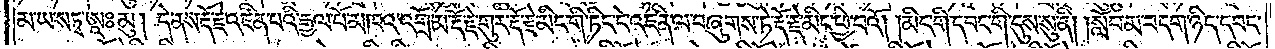མ་ཡ་སཏྭ་ཨཱཿམུ། །དེ་ནས་རྡོ་རྗེ་འཛིན་པའི་རྒྱལ་པོ་མཁའ་འགྲོ་མ་རྡོ་རྗེ་གུར་རྡོ་རྗེ་མིང་གི་ཏིང་ངེ་འཛིན་ལ་བཞུགས་ཏེ་རྡོ་རྗེ་མིང་ཕྱེ་བའོ། །མིང་གི་དབང་གི་དུས་སུ་ནི། །སློབ་མ་བདག་ཉིད་དབང་
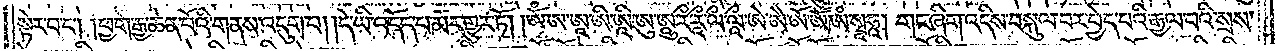སྟེར་བ་ང༌། །ཕྱག་རྒྱ་ཆེན་པོའི་གནས་འདུག་པ། །དེ་ཡི་འདོད་པ་མར་གྱུར་ཏོ། །ཨོཾ་ཨ་ཨཱ་ཨི་ཨཱི་ཨུ་ཨཱུ་རྀ་རཱྀ་ལྀ་ལཱྀ་ཨེ་ཨཻ་ཨོ་ཨཽ་ཨཾ་སྭཱཧཱ། གང་ཞིག་འདིས་བསྐུལ་བར་བྱེད་པའི་རྒྱལ་བའི་སྲས་
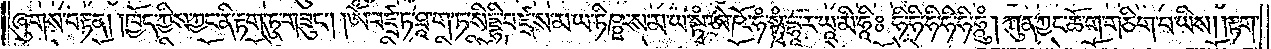ཞུགས་བརྟན། །ཁྱོད་ཀྱིས་ཀྱང་ནི་རྟག་ཏུ་གཟུང༌། །ཨོཾ་བཛྲ་ཏ་ཐཱ་ག་ཏ་སིདྡྷི་བཛྲ་ས་མ་ཡ་ཏིཥྛ་ས་མ་ཡ་སྟྭཾ་ཨེ་ཥོ་ཧཾ་སྟྭཾ་དྷཱ་ར་ཡཱ་མི་ཧཱིཿ ཧི་ཧི་ཧི་ཧི་ཧི་ཧཱུཾ། ཀུན་ཀྱང་ཆོག་གཅིག་པ་ཡིས། །རྟག་
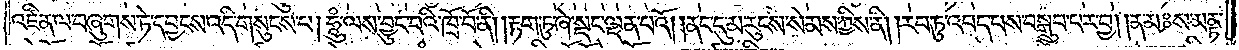འཛིན་ལ་བཞུགས་ཏེ་དབྱངས་འདི་གསུངས་པ། ཧཱུཾ་ལས་བྱུང་བའི་ཁྲོ་པོ་ནི། །རྟག་ཏུ་ཞེ་སྡང་ལྡན་པའོ། །ནང་དུ་མ་རུངས་སེམས་ཀྱིས་ནི། །རབ་ཏུ་འབད་པས་བསྒྲུབ་པར་བྱ། །ན་མཿ ས་མནྟ་
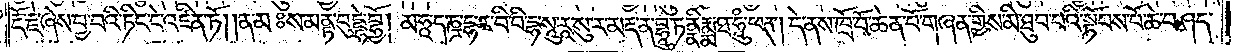རྡོ་རྗེ་ཞེས་བྱ་བའི་ཏིང་ངེ་འཛིན་ཏོ། །ན་མཿ ས་མནྟ་བུདྡྷེ་བྷྱོ། མ་ཧཱ་ད་ཎྜ་དྷ་ར་བི་བི་དྷ་སཱུ་རཱ་སུ་ར་མརྡ་ན་བྷཱུ་ཏནྣི་རྨྨ་ཐ་ཧཱུཾ་ཕཊ། དེ་ནས་ཁྲོ་བོ་ཆེན་པོ་གཞན་གྱིས་མི་ཐུབ་པའི་སྟོབས་པོ་ཆེ་བཤད་
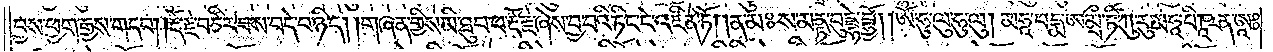བྱས་ཕྱག་རྒྱས་གདབ། །རྡོ་རྗེ་བཙིར་བས་བདེ་བ་ཉིད། །གཞན་གྱིས་མི་ཐུབ་པ་རྡོ་རྗེ་ཞེས་བྱ་བའི་ཏིང་ངེ་འཛིན་ཏོ། །ན་མཿ ས་མནྟ་བུདྡྷེ་བྷྱོ། །ཨོཾ་ཧུ་ལུ་ཧུ་ལུ། མཧཱ་པདྨ་ཨ་མྲྀ་ཏི་ཀུ་རུ་མ་ཧཱ་པི་ཥཱ་ན་ཨཱཿ
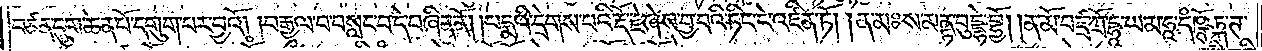བཙན་དུག་ཆེན་པོ་དགུག་པར་བྱའོ། །བརྒྱལ་བ་བསླང་བ་དེ་བཞིན་ནོ། །པདྨའི་དྲེགས་པའི་རྡོ་རྗེ་ཞེས་བྱ་བའི་ཏིང་ངེ་འཛིན་ཏོ། །ན་མཿ ས་མནྟ་བུདྡྷེ་བྷྱོ། །ན་མོ་བཛྲ་ཀྲོ་དྷཱ་ཡ་མ་ཧཱ་དཾ་ཥྚོཏྐ་ཊ་
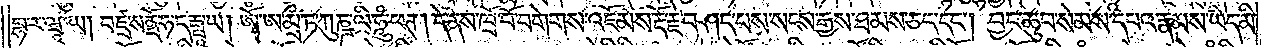བྷ་ར་ཝཱ་ཡ། བཛྲ་སནྡོ་ཧ་དརྦྤཱ་ཡ། ཨོཾ་ཨ་མྲྀ་ཏ་ཀུཎྜ་ལི་ཧཱུཾ་ཕཊ། དེ་ནས་ཁྲོ་བོ་བགེགས་འཇོམས་རྡོ་རྗེ་བཤད་པས་སངས་རྒྱས་ཐམས་ཅད་དང༌། བྱང་ཆུབ་སེམས་དཔའ་རྣམས་ཡིད་མི་
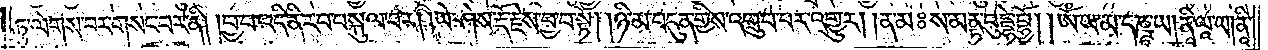ཅུ་ལེགས་བར་གསང་བར་ནི། །བྱ་བ་འདི་ནི་རབ་བསྐུལ་བར། །ཡེ་ཤེས་རྡོ་རྗེས་བྱ་བ་སྟེ། །ཉི་མ་བདུན་གྱིས་འགྲུབ་པར་འགྱུར། །ན་མཿ ས་མནྟ་བུདྡྷེ་བྷྱོ། །ཨོཾ་ཡ་མ་དཎྜཱ་ཡ། ནཱི་ལཱ་ཡ། ནཱི་
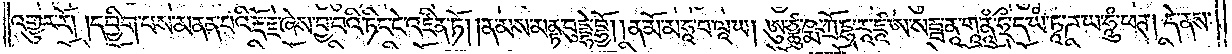འགྱུར་རོ། །དབྱིག་པས་མནན་པའི་རྡོ་རྗེ་ཞེས་བྱ་བའི་ཏིང་ངེ་འཛིན་ཏོ། །ནམས་མནྟ་བུདྡྷེ་བྷྱོ། །ན་མོ་མ་ཧཱ་བ་ལཱ་ཡ། ཨུ་ཙྪུ་ཥྨ་ཀྲོ་དྷ་རཱ་ཛཱ་ཨ་སརྦྦ་ནཱ་གཱ་ནཱཾ་ཧྲྀ་ད་ཡཾ་ཏཱ་ཊ་ཡ་ཧཱུཾ་ཕཊ། དེ་ནས་
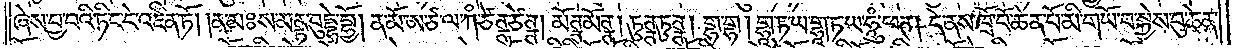ཞེས་བྱ་བའི་ཏིང་ངེ་འཛིན་ཏོ། །ན་མཿ ས་མནྟ་བུདྡྷེ་བྷྱོ། ན་མོ་ཨ་ཙ་ལ་ཀཾ་ཙེ་ཊྚ་ཙེཊྚ། མོཊྚ་མོཊྚ། ཏུཊྚ་ཏུཊྚ། གྷ་གྷ། གྷཱ་ཏ་ཡ་གྷཱ་ཏ་ཡ་ཧཱུཾ་ཕཊ། དེ་ནས་ཁྲོ་བོ་ཆེན་པོ་མི་གཡོ་བ་སྐྱེས་བུ་ཆེན་
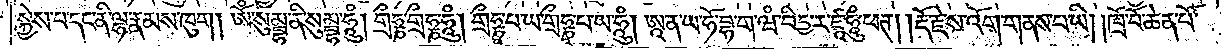སྐྱེས་པ་དང་ནི་ལྷ་རྣམས་ཁུག། ཨོཾ་སུམྦྷ་ནི་སུམྦྷ་ཧཱུཾ། གྲྀཧྞ་གྲྀཧྞ་ཧཱུཾ། གྲྀཧྞཱ་པ་ཡ་གྲྀཧྞཱ་པ་ཡ་ཧཱུཾ། ཨཱ་ན་ཡ་ཧོ་བྷ་ག་ཝཾ་བིདྱ་ར་ཛཱ་ཧཱུཾ་ཕཊ། །རྡོ་རྗེ་ས་འོག་གནས་པ་ཡི། །ཁྲོ་བོ་ཆེན་པོ་
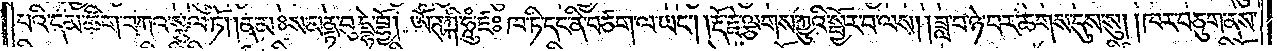པའི་དམ་ཚིག་བཀའ་སྩལ་ཏོ། །ན་མཿ ས་མནྟ་བུདྡྷེ་བྷྱོ། ཨོཾ་ཊཀྐི་ཧཱུཾ་ཛཿ ཁ་ཏི་དང་ནི་བཙག་ལ་ཡང༌། །རྡོ་རྗེ་ལྕགས་ཀྱུའི་སྦྱོར་བ་ལས། །ཟླ་བ་ཉེ་བར་ཆགས་དུས་སུ། །ཁར་བཅུག་ནས་
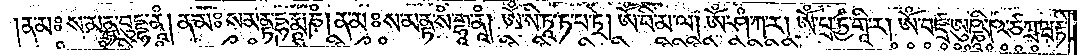ན་མཿ ས་མནྟ་བུདྡྷ་ནཱཾ། ན་མཿ ས་མནྟ་དྷརྨཱ་ཎཾ། ན་མཿ ས་མནྟ་སཾ་གྷཱ་ནཱཾ། ཨོཾ་སི་ཏཱ་ཏ་བ་ཏྲེ། ཨོཾ་བི་མ་ལ། ཨོཾ་ཤཾ་ཀ་ར། ཨོཾ་པྲ་ཏྱཾ་གཱི་ར། ཨོཾ་བཛྲ་ཨུཥྞི་ཥ་ཙ་གྲ་ཝཾ་རྟི་
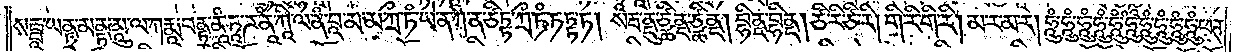སརྦྦཱ་ཡནྟྲ་མནྟྲ་མཱུ་ལ་ཀརྨཱ་བནྟྲ་ནཱི་ཏཱ་ཌ་ནཱ་ཀཱི་ལ་ནཾ་བཱ་མ་མ་ཀྲྀ་ཏཾ་ཡ་ན་ཀ་ན་ཙིཏྟ་ཀྲྀ་ཏཾ་ཏཏྟ་ཏ། སརྦ་ནྡུ་ཙྪིནྡ་ཙྪིནྡ། བྷིནྡ་བྷིནྡ། ཙི་རི་ཙི་རི། གི་རི་གི་རི། མ་ར་མ་ར། ཧཱུཾ་ཧཱུཾ་ཧཱུཾ་ཧཱུཾ་ཧཱུཾ་ཧཱུཾ་ཧཱུཾ་ཧཱུཾ་ཧཱུཾ་ཧཱུཾ་ཕཊ་
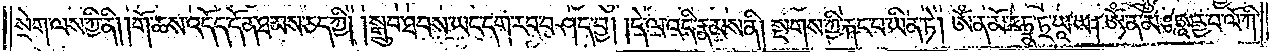སྲེག་ལས་ཀྱི་ནི། གོ་ཆས་འདོད་དོན་ཐམས་ཅད་ཀྱི། སྒྲུབ་ཐབས་ཡང་དག་རབ་བཤད་བྱ། དེ་ལ་འདི་ནི་རྣམས་ནི། སྔས་ཀྱི་རྐང་པ་ཡིན་ཏེ། ཨོཾ་ན་མོ་ར་ཏྣ་ཏྲ་ཡཱ་ཡ། ཨོཾ་ན་མཿཨཱརྱ་བ་ལོ་ཀི་
